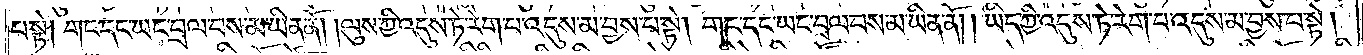པ་སྟེ། གང་དང་ཡང་བྲལ་བས་མ་ཡིན་ནོ། །ལུས་ཀྱི་འདུས་ཏེ་རེག་པ་འདུས་མ་བྱས་པ་སྟེ། །གང་དང་ཡང་བྲལ་བས་མ་ཡིན་ནོ། །ཡིད་ཀྱི་འདུས་ཏེ་རེག་པ་འདུས་མ་བྱས་པ་སྟེ།
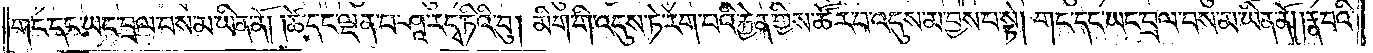གང་དང་ཡང་བྲལ་བས་མ་ཡིན་ནོ། །ཚེ་དང་ལྡན་པ་ཤཱ་ར་དྭ་ཏིའི་བུ། མིག་གི་འདུས་ཏེ་རེག་པའི་རྐྱེན་གྱིས་ཚོར་བ་འདུས་མ་བྱས་པ་སྟེ། གང་དང་ཡང་བྲལ་བས་མ་ཡིན་ནོ། །རྣ་བའི་
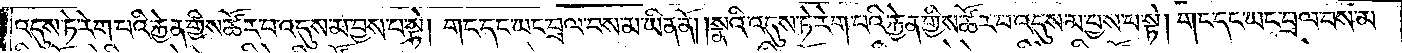འདུས་ཏེ་རེག་པའི་རྐྱེན་གྱིས་ཚོར་བ་འདུས་མ་བྱས་པ་སྟེ། གང་དང་ཡང་བྲལ་བས་མ་ཡིན་ནོ། །སྣའི་འདུས་ཏེ་རེག་པའི་རྐྱེན་གྱིས་ཚོར་བ་འདུས་མ་བྱས་པ་སྟེ། གང་དང་ཡང་བྲལ་བས་མ་
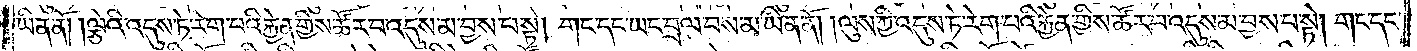ཡིན་ནོ། །ལྕེའི་འདུས་ཏེ་རེག་པའི་རྐྱེན་གྱིས་ཚོར་བ་འདུས་མ་བྱས་པ་སྟེ། གང་དང་ཡང་བྲལ་བས་མ་ཡིན་ནོ། །ལུས་ཀྱི་འདུས་ཏེ་རེག་པའི་རྐྱེན་གྱིས་ཚོར་བ་འདུས་མ་བྱས་པ་སྟེ། གང་དང་
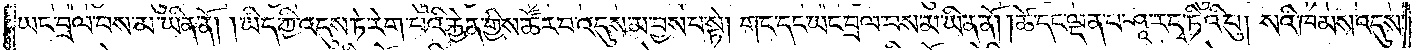ཡང་བྲལ་བས་མ་ཡིན་ནོ། །ཡིད་ཀྱི་དུས་ཏེ་རེག་པའི་རྐྱེན་གྱིས་ཚོར་བ་འདུས་མ་བྱས་པ་སྟེ། གང་དང་ཡང་བྲལ་བས་མ་ཡིན་ནོ། །ཚེ་དང་ལྡན་པ་ཤཱ་ར་དྭ་ཏིའི་བུ། སའི་ཁམས་འདུས་
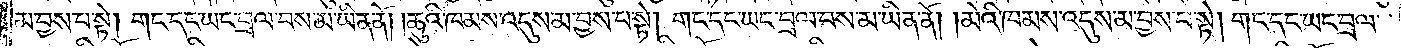མ་བྱས་པ་སྟེ། གང་དང་ཡང་བྲལ་བས་མ་ཡིན་ནོ། །ཆུའི་ཁམས་འདུས་མ་བྱས་པ་སྟེ། གང་དང་ཡང་བྲལ་བས་མ་ཡིན་ནོ། །མེའི་ཁམས་འདུས་མ་བྱས་པ་སྟེ། གང་དང་ཡང་བྲལ་
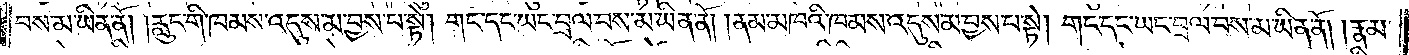བས་མ་ཡིན་ནོ། །རླུང་གི་ཁམས་འདུས་མ་བྱས་པ་སྟེ། གང་དང་ཡང་བྲལ་བས་མ་ཡིན་ནོ། །ནམ་མཁའི་ཁམས་འདུས་མ་བྱས་པ་སྟེ། གང་དང་ཡང་བྲལ་བས་མ་ཡིན་ནོ། །རྣམ་
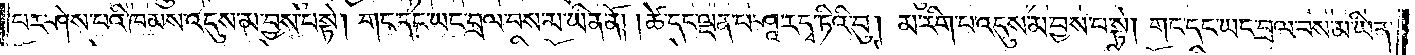པར་ཤེས་པའི་ཁམས་འདུས་མ་བྱས་པ་སྟེ། གང་དང་ཡང་བྲལ་བས་མ་ཡིན་ནོ། །ཚེ་དང་ལྡན་པ་ཤཱ་ར་དྭ་ཏིའི་བུ། མ་རིག་པ་འདུས་མ་བྱས་པ་སྟེ། གང་དང་ཡང་བྲལ་བས་མ་ཡིན་
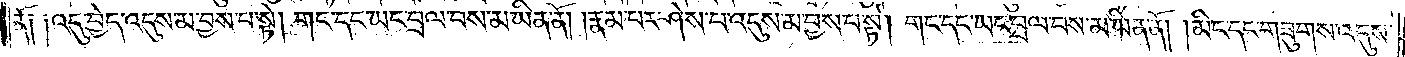ནོ། །འདུ་བྱེད་འདུས་མ་བྱས་པ་སྟེ། གང་དང་ཡང་བྲལ་བས་མ་ཡིན་ནོ། །རྣམ་པར་ཤེས་པ་འདུས་མ་བྱས་པ་སྟེ། གང་དང་ཡང་བྲལ་བས་མ་ཡིན་ནོ། །མིང་དང་གཟུགས་འདུས་
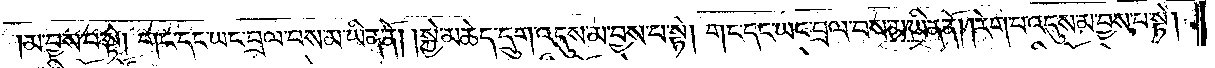མ་བྱས་པ་སྟེ། གང་དང་ཡང་བྲལ་བས་མ་ཡིན་ནོ། །སྐྱེ་མཆེད་དྲུག་འདུས་མ་བྱས་པ་སྟེ། གང་དང་ཡང་བྲལ་བས་མ་ཡིན་ནོ། །རེག་པ་འདུས་མ་བྱས་པ་སྟེ།
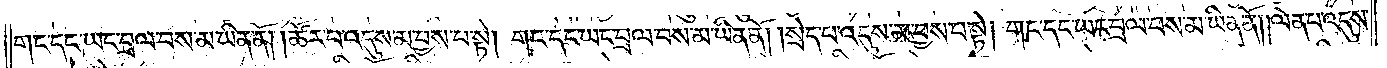གང་དང་ཡང་བྲལ་བས་མ་ཡིན་ནོ། །ཚོར་བ་འདུས་མ་བྱས་པ་སྟེ། གང་དང་ཡང་བྲལ་བས་མ་ཡིན་ནོ། །སྲེད་པ་འདུས་མ་བྱས་པ་སྟེ༑གང་དང་ཡང་བྲལ་བས་མ་ཡིན་ནོ། །ལེན་པ་འདུས་
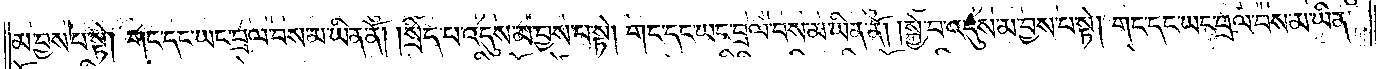མ་བྱས་པ་སྟེ། གང་དང་ཡང་བྲལ་བས་མ་ཡིན་ནོ། །སྲིད་པ་འདུས་མ་བྱས་པ་སྟེ། གང་དང་ཡང་བྲལ་བས་མ་ཡིན་ནོ། །སྐྱེ་བོ་འདུས་མ་བྱས་པ་སྟེ། གང་དང་ཡང་བྲལ་བས་མ་ཡིན་
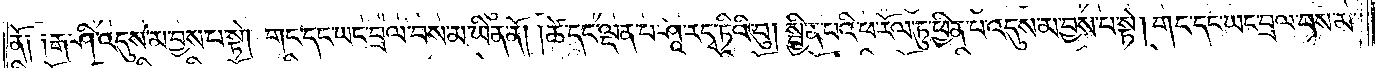ནོ༑ ༑རྒ་ཤི་འདུས་མ་བྱས་པ་སྟེ། གང་དང་ཡང་བྲལ་བས་མ་ཡིན་ནོ། །ཚེ་དང་ལྡན་པ་ཤཱ་ར་དྭ་ཏིའི་བུ། སྦྱིན་པའི་ཕ་རོལ་ཏུ་ཕྱིན་པ་འདུས་མ་བྱས་པ་སྟེ། གང་དང་ཡང་བྲལ་བས་མ་
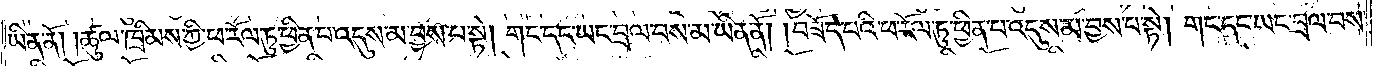ཡིན་ནོ། །ཚུལ་ཁྲིམས་ཀྱི་ཕ་རོལ་ཏུ་ཕྱིན་པ་འདུས་མ་བྱས་པ་སྟེ། གང་དང་ཡང་བྲལ་བས་མ་ཡིན་ནོ། །བཟོད་པའི་ཕ་རོལ་ཏུ་ཕྱིན་པ་འདུས་མ་བྱས་པ་སྟེ། གང་དང་ཡང་བྲལ་བས་
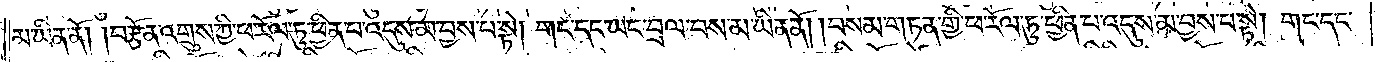མ་ཡིན་ནོ། །བརྩོན་འགྲུས་ཀྱི་ཕ་རོལ་ཏུ་ཕྱིན་པ་འདུས་མ་བྱས་པ་སྟེ། གང་དང་ཡང་བྲལ་བས་མ་ཡིན་ནོ། །བསམ་གཏན་གྱི་ཕ་རོལ་ཏུ་ཕྱིན་པ་འདུས་མ་བྱས་པ་སྟེ། གང་དང་
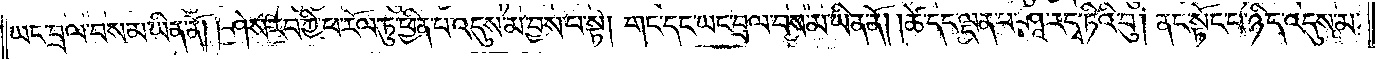ཡང་བྲལ་བས་མ་ཡིན་ནོ། །ཤེས་རབ་ཀྱི་ཕ་རོལ་ཏུ་ཕྱིན་པ་འདུས་མ་བྱས་པ་སྟེ། གང་དང་ཡང་བྲལ་བས་མ་ཡིན་ནོ། །ཚེ་དང་ལྡན་པ་ཤཱ་ར་དྭ་ཏིའི་བུ། ནང་སྟོང་པ་ཉིད་འདུས་མ་
